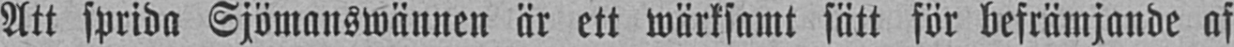Att sprida Sjömanswännen är ett wärksamt sätt för befrämjande af
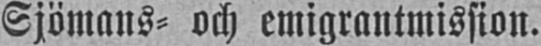Sjömans- och emigrantmission.
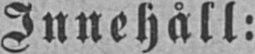Innehåll:
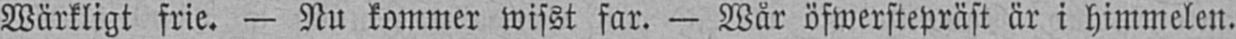Wärkligt frie. — Nu kommer wisst far. — Wår öfwerstepräst är i himmelen.
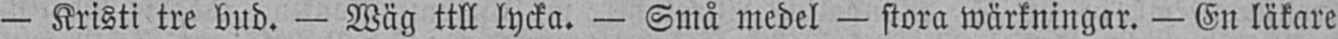— Kristi tre bud. — Wäg ttll lycka. — Små medel — stora wärkningar. — En läkare
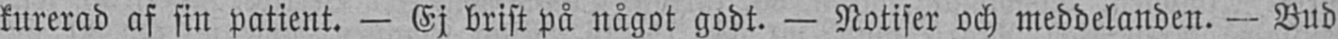kurerad af sin patient. — Ej brist på något godt. — Notiser och meddelanden. — Bud
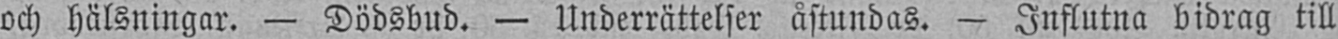och hälsningar. — Dödsbud. — Underrättelser åstundas. — Influtna bidrag till
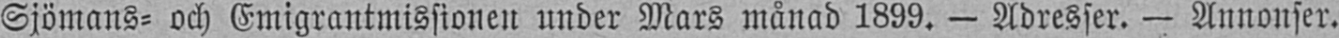Sjömans- och Emigrantmissionen under Mars månad 1899. — Adresser. — Annonser.
